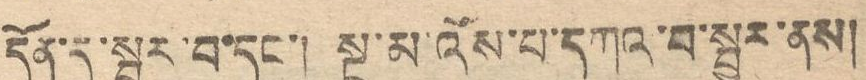དོན་དུ་སྦྱར་བ་དང་། སྔ་མ་འོས་པ་དཀའ་བ་སྦྱར་ནས།
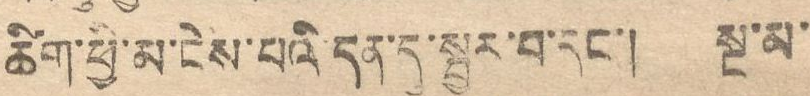ཚིག་ཕྱི་མ་ངེས་པའི་དན་དུ་སྦྱར་བ་དང་། སྔ་མ་
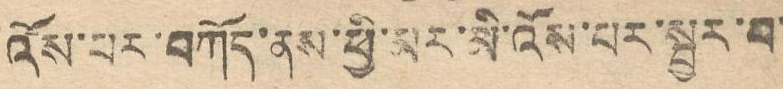འོས་པར་བཀོད་ནས་ཕྱི་མར་མི་འོས་པར་སྦྱར་བ་
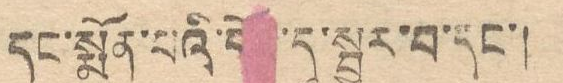དང་སྨོས་པའི་དོན་དུ་སྦྱར་བ་དང་།
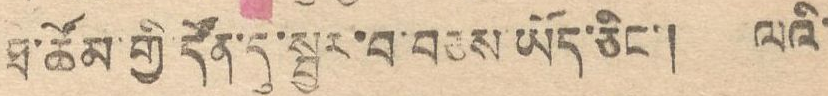ཐ་ཚོམ་གྱི་དོན་དུ་སྦྱར་བ་བཅས་ཡོད་ཅིང་། ལའི་
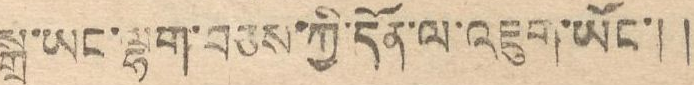སྒྲ་ཡང་ལྷག་བཅས་ཀྱི་དོན་ལ་འཇུག་ཡོང་། །
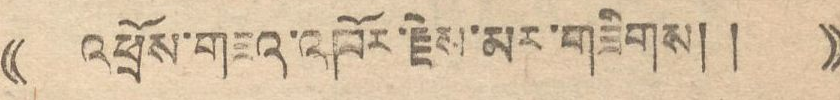(( འཕྲོས་གཟའ་འཁོར་རྗེས་མར་གཟིགས། ། ))
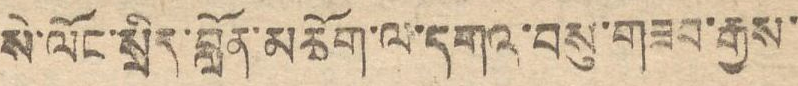སེ་ལོང་སྲིད་བློན་མཆོག་ལ་དགའ་བསུ་གཟབ་རྒྱས་
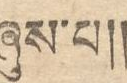ཞུས་པ༎
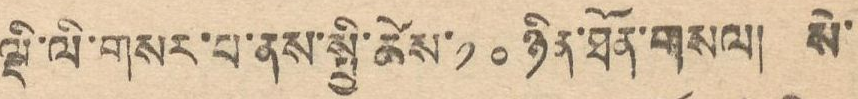ལྡི་ལི་གསར་པ་ནས་སྤྱི་ཚེས་ ༡༠ ཉིན་ཐོན་གསལ། སེ་
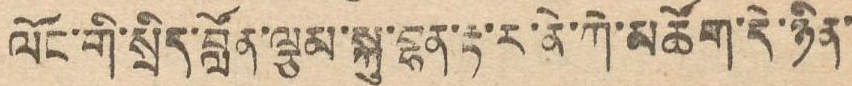ལོང་གི་སྲིད་བློན་ལྕམ་སྐུ་བྷན་རྟ་ར་ནེ་ཀེ་མཆོག་དེ་ཉིན་
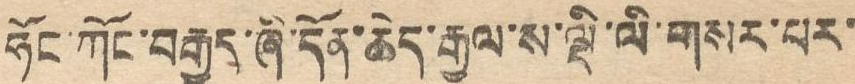ཧོང་ཀོང་བརྒྱུད་ཞི་དོན་ཆེད་རྒྱལ་ས་ལྡི་ལི་གསར་པར་
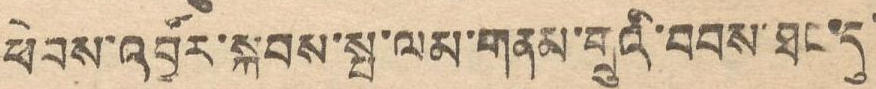ཕེབས་འབྱོར་སྐབས་སྤ་བས་ལམ་གནམ་གྲུའི་བབས་ཐང་དུ་
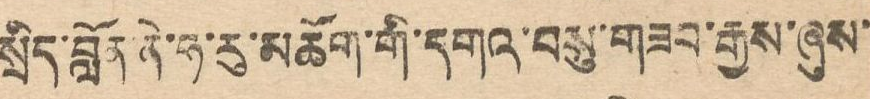སྲིད་བློན་ནེ་ཧ་རུ་མཆོག་གི་དགའ་བསུ་གཟབ་རྒྱས་ཞུས་
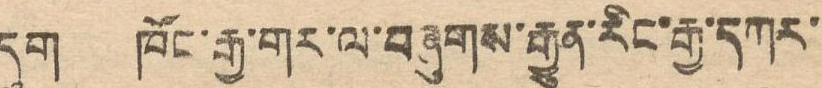དུག ཁོང་རྒྱ་གར་ལ་བཞུགས་རྒྱུན་རིང་རྒྱ་དཀར་
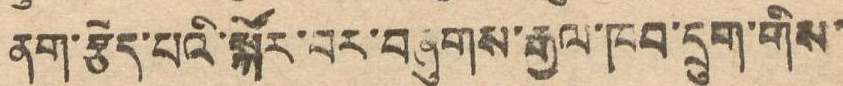ནག་རྩེད་པའི་སྐོར་བར་བཞུགས་རྒྱལ་ཁབ་དྲུག་གིས་
